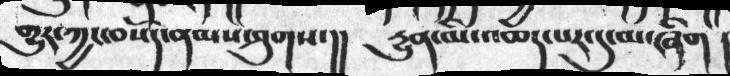གྱུར་ཀྱང་བསོད་ནམས་ཤུགས་།།     རྒྱུན་མི་འཆད་པར་དུ་མ་ཞིག །
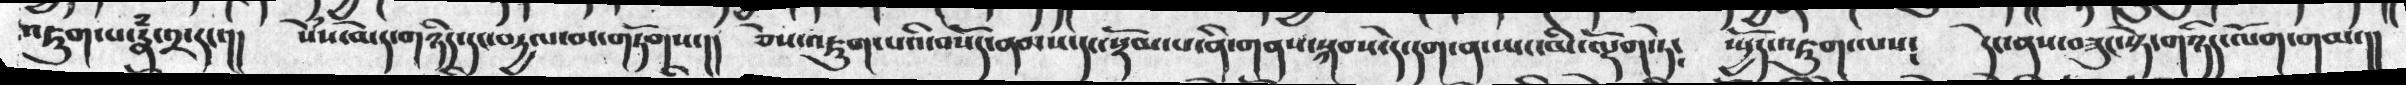འཇུག་པ་རྣཾ་༢་དང་།།   སེཾས་མེད་གཉིད་དང་བརྒྱལ་མ་གཏོགས་།།  ཅེས་འཇུག་པའི་བསོད་ནམས་དང་སྡོམ་པ་ནི་གནས་སྐབས་དེ་དག་ན་ཡང་མི་ལྡོག་ཏེ༴   ཡྱོད་འཇུག་ལས༴   དེང་ནས་བཟུང་སྟེ་གཉིད་ལོག་གམ་།།
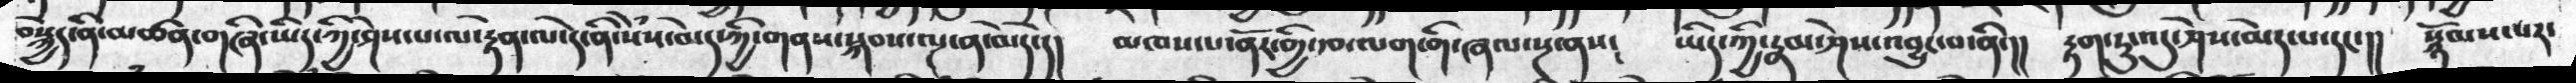བསྐྱེད་ནི་མཚན་གཞི་ཡིད་ཀྱི་ཤེས་པ་ལ་རྟེན་ལ་དེ་ནི་སེསྃ་མེད་ཀྱི་གནས་སྐབས་ལྔ་ན་མེད་དེ་།།   མཁས་པ་ནོར་གྱི་རྩ་ལག་གི་ཞལ་སྔ་ནས༴ ཡིད་ཀྱི་རྣམ་ཤེས་འབྱུང་བ་ནི་།།  རྟག་ཏུ་འདུ་ཤེས་མེད་པ་དང་།།  སྙོམས་པར་
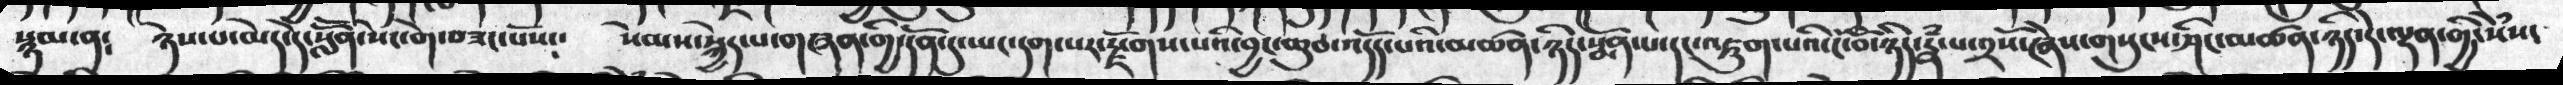སྙམ་ན༴   ཉེས་པ་མེད་དེ་སློོན་སེང་གེ་བཟང་པོས༴   སེམས་སྐྱེད་པ་གཞན་གྱི་དོན་དུ་ཡང་དག་པར་སྗོགས་པའི་བྱང་ཆུབ་འདོད་པའི་མཚན་ཉིད་སྨོན་པ་དང་འཇུག་པའི་ངོ་བོ་ཉིད་རྣཾ་པ་༢་སོ་ཞེས་གསུངས་ཤིང་མཚན་ཉིད་དེ་ལྡན་གྱི་སེྃས་
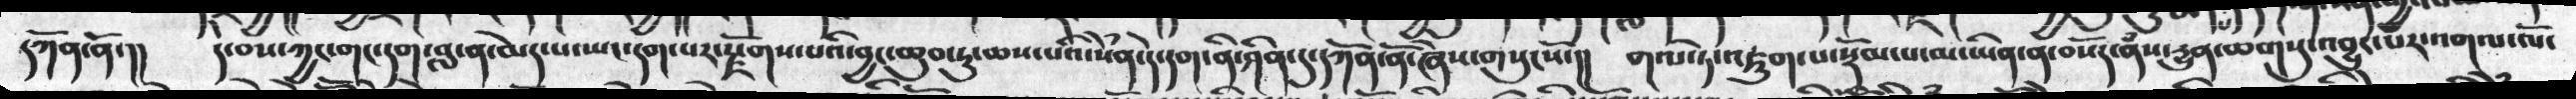དཀོན་ནོ་།།  ད་བས་ཀྱང་གང་དག་བླ་ན་མེད་པ་ཡང་དག་པར་རྫོགས་པའི་བྱང་ཆུབ་ཏུ་ཆས་པའི་སེཾན་དེ་དག་ནི་ཤིན་དུ་དཀོན་ནོ་ཞེས་གསུངསོ།།   གལ་ཏེ་འཇུག་པ་སྡོམ་པ་མ་ཡིན་ན་བསོད་ནཾས་རྱུན་ཆགསུ་འབྱུང་པར་འགལ་ལོ་
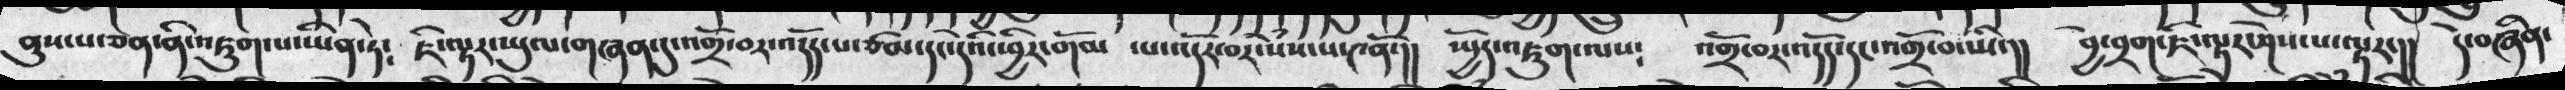ནུས་པ་ཅན་ནི་འཇུག་པ་ཡིན་ཏེ༴  ཇི་ལྟར་ཡུལ་གཞན་དུ་འགྲོ་བར་འདོད་པ་ཙམ་དང་དེའི་ཕྱིར་གོམ   ་པ་འདོར་བར་སེཾས་པ་༤ནོ་།།   སྤྱོད་འཇུག་ལས  འགྲོ་བར་འདོད་དང་འགྲོ་བ་ཡི་།།  བྱེ་བྲག་ཇི་ལྟར་ཤེས་པ་ལྟར་།།  དེ་བཞིན་
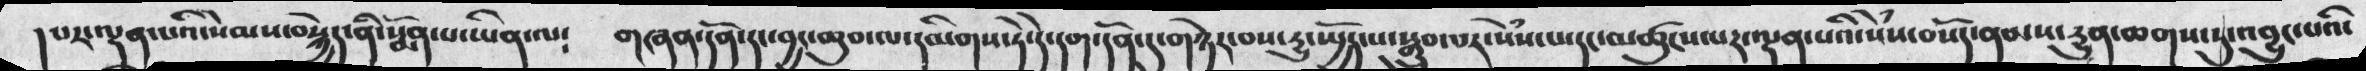།པར་ལྡན་པའི་སེམས་བསྐྱིད་ནི་སྨོན་པ་ཡིན་ལ༴  གཞན་དོན་དང་བྱང་ཆུབ་དམིགས་ཏེ་དེ་དག་དོན་དུ་གཉེར་བས་ཏུ་སྤྱོད་པ་སྒྲུབ་པར་སེཾས་པ་དང་མཚུང་པར་ལྡན་པའི་སེཾས་བསོད་ནམས་དྱུན་ཆགས་ཏུ་འབྱུང་པའི་
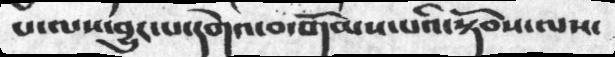པ་ལས་བྱུང་པ་དགེའ་བ་གོམས་པའི་སྟོབས་ལས་
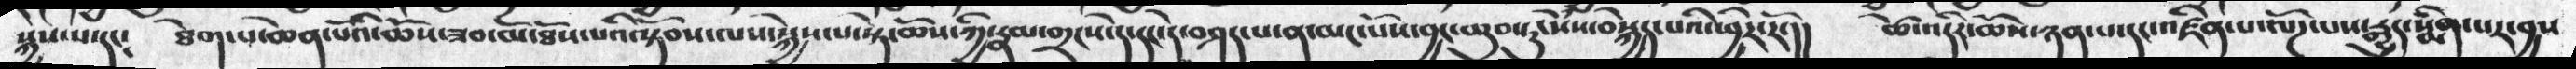སྐྱེས་པ་དང༴  ཐེག་ཆེན་པོའི་ཆོས་ཟབ་མོ་ཐོས་པའི་སྟོབས་ལས་སྐྱེས་པ་སྟེ་ཆོས་ཀྱི་རྣམ་གྲངས་དེ་དང་དེ་བཤད་པ་ན་མང་པོས་བྱང་ཆུབ་དུ་སེཾས་བསྐྱེད་པའི་ཕྱིར་རོ་།།   ཚེ་འདིར་ཆོས་ཉན་པ་དང་འཛིན་པ་ལོཌ་པས་རྒྱུར་སྨིན་པར་བྱས
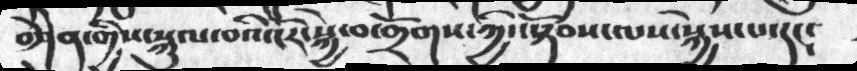བཤན་གྱིས་སྐུལ་བའི་ངོར་སྐྱེ་བ་གྲོགས་ཀྱི་སྟོབས་ལས་སྐྱེས་པ་དང༴
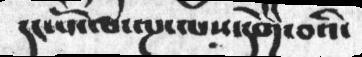དང་པོ་ལ་ལྔ་ལས་དགེ་བའི་
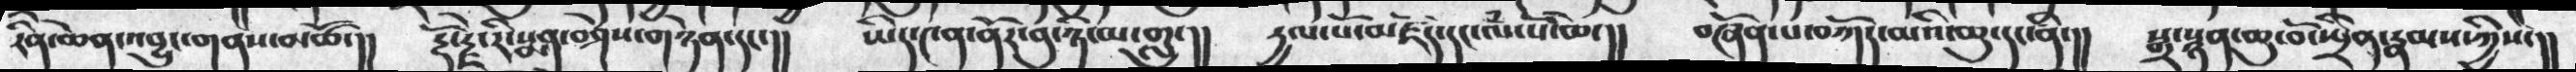རིན་ཆེན་འབྱུང་གནས་མཚོ་།།  རྡོ་རྗེ་རི་སྨན་བཤེས་གཉེན་དང་།།  ཡིད༤ན་ནོར་བུ་ཉི་མ་གླུ་།།  དྱལ་པོ་མཛོད་དང་ལཾ་པོ་ཆེ་།།  བཞོན་པ་བཀོད་མའི་ཆུ་དང་ནི་།།  སྒྲ་སྙན་ཆུ་སྤྲིན་རྣམས་ཀྱིས་།།
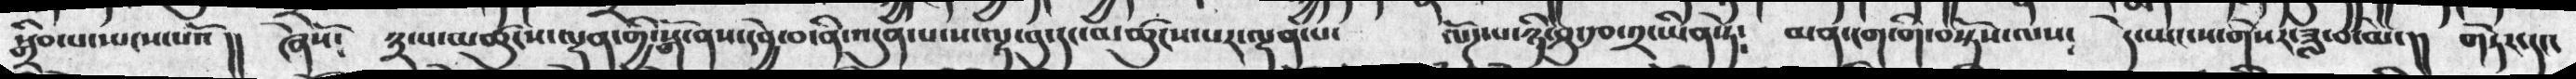སྒྲིབ་པ་ཡངས་པའོ།།  ཞེསོ༴  ༣་པ་མཚུངས་ལྡན་གྱི་སྒོ་ནས་དབྱེ་བ་ནི་འདུན་པ་ས་ལྟ་བུ་དང་མཚུང་པར་ལྡན་པ་   ལོཌ་པ་ཉི་ཤུ་རྩ་༢་ཡིན་ཏེ༴  མན་ངག་གི་བསྟེན་ལས༴  དེ་ཡང་ས་གསེར་ཟླ་བ་མེད་།། གཏེར་དང་
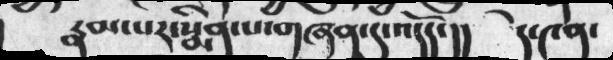རྣམ་པར་སྨིན་པ་གཞན་དུ་འདོད་།།  དེ་༤ན་
